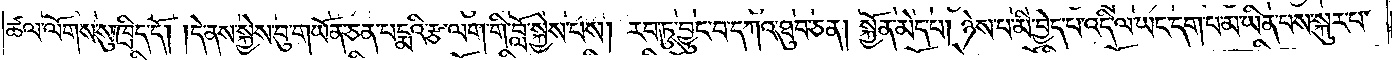ཚལ་ལོགས་སུ་ཁྲིད་དོ། །དེ་ནས་སྐྱེས་བུ་གཡོན་ཅན་པདྨའི་རྩ་ལག་གི་བློ་སྐྱེས་པས། རབ་ཏུ་བྱུང་བ་དཀའ་ཐུབ་ཅན། སྐྱོན་མེད་པ། ཉེས་པ་མི་བྱེད་པ་འདི་ལ་ཡང་དག་པ་མ་ཡིན་པས་སྐུར་པ་
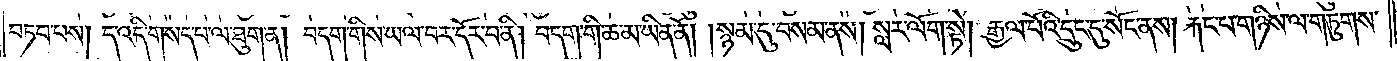བཏབ་པས། ད་འདི་གསད་པ་ལ་ཐུག་ན། བདག་གིས་ཡལ་བར་དོར་བ་ནི། བདག་གི་ཆ་མ་ཡིན་ནོ། །སྙམ་དུ་བསམ་ནས། སླར་ལོག་སྟེ། རྒྱལ་པོའི་དྲུང་དུ་སོང་ནས། རྐང་པ་གཉིས་ལ་གཏུགས་
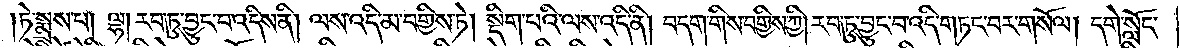།ཏེ་སྨྲས་པ། ལྷ། རབ་ཏུ་བྱུང་བ་འདིས་ནི། ལས་འདི་མ་བགྱིས་ཏེ། སྡིག་པའི་ལས་འདི་ནི། བདག་གིས་བགྱིས་ཀྱི། རབ་ཏུ་བྱུང་བ་འདི་གཏང་བར་གསོལ། དགེ་སློང་
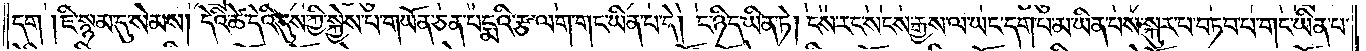དག །ཇི་སྙམ་དུ་སེམས། དེའི་ཚེ་དེའི་དུས་ཀྱི་སྐྱེས་པ་གཡོན་ཅན་པདྨའི་རྩ་ལག་གང་ཡིན་པ་དེ། ང་ཉིད་ཡིན་ཏེ། ངས་རང་སངས་རྒྱས་ལ་ཡང་དག་པ་མ་ཡིན་པས་སྐུར་པ་བཏབ་པ་གང་ཡིན་པ་
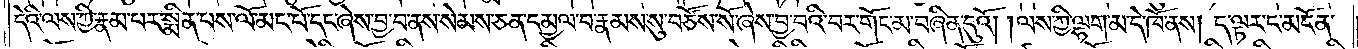དེའི་ལས་ཀྱི་རྣམ་པར་སྨིན་པས་ལོ་མང་པོ་དང་ཞེས་བྱ་བ་ནས་སེམས་ཅན་དམྱལ་བ་རྣམས་སུ་བཙོས་སོ་ཞེས་བྱ་བའི་བར་གོང་མ་བཞིན་དུའོ། །ལས་ཀྱི་ལྷག་མ་དེ་ཁོ་ནས། ད་ལྟར་ང་མངོན་
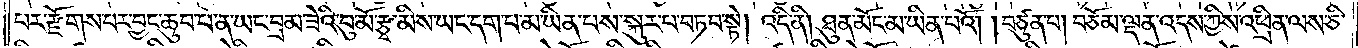པར་རྫོགས་པར་བྱང་ཆུབ་པ་ན་ཡང་བྲམ་ཟེའི་བུ་མོ་རྩྭ་མིས་ཡང་དག་པ་མ་ཡིན་པས་སྐུར་བ་བཏབ་སྟེ། འདི་ནི། ཐུན་མོང་མ་ཡིན་པའོ། །བཙུན་པ། བཅོམ་ལྡན་འདས་ཀྱིས་འཕྲིན་ལས་ཅི་
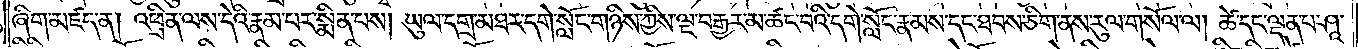ཞིག་མཛད་ན། འཕྲིན་ལས་དེའི་རྣམ་པར་སྨིན་པས། ཡུལ་དགྲ་མཐར་དགེ་སློང་གཉིས་ཀྱིས་ལྔ་བརྒྱར་མ་ཚང་བའི་དགེ་སློང་རྣམས་དང་ཐབས་ཅིག་ནས་རུལ་གསོལ་ལ། ཚེ་དང་ལྡན་པ་ཤཱ་
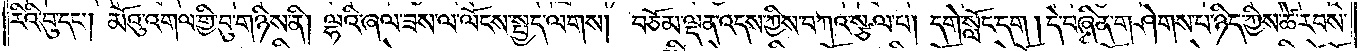རིའི་བུ་དང༌། མོའུ་འགལ་གྱི་བུ་གཉིས་ནི། ལྷའི་ཞལ་ཟས་ལ་ལོངས་སྤྱད་ལགས། བཅོམ་ལྡན་འདས་ཀྱིས་བཀའ་སྩལ་པ། དགེ་སློང་དག །དེ་བཞིན་གཤེགས་པ་ཉིད་ཀྱིས་ཚེ་རབས་
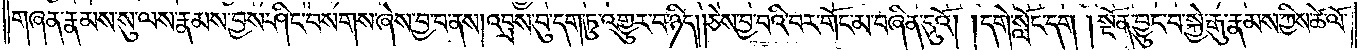གཞན་རྣམས་སུ་ལས་རྣམས་བྱས་ཤིང་བསགས་ཞེས་བྱ་བ་ནས། འབྲས་བུ་དག་ཏུ་འགྱུར་བ་ཉིད། །ཅེས་བྱ་བའི་བར་གོང་མ་བཞིན་དུའོ། །དགེ་སློང་དག །སྔོན་བྱུང་བ་སྐྱེ་རྒུ་རྣམས་ཀྱིས་ཚེ་ལོ་
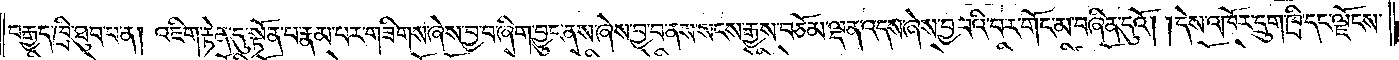བརྒྱད་ཁྲི་ཐུབ་པ་ན། འཇིག་རྟེན་དུ་སྟོན་པ་རྣམ་པར་གཟིགས་ཞེས་བྱ་བ་ཞིག་བྱུང་ནས་ཞེས་བྱ་བ་ནས་སངས་རྒྱས་བཅོམ་ལྡན་འདས་ཞེས་བྱ་བའི་བར་གོང་མ་བཞིན་དུའོ། །དེས་འཁོར་དྲུག་ཁྲི་དང་ལྗོངས་
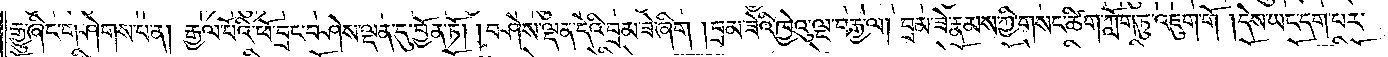རྒྱུ་ཞིང་གཤེགས་པ་ན། རྒྱལ་པོའི་ཕོ་བྲང་བཤེས་ལྡན་དུ་བྱོན་ཏོ། །བཤེས་ལྡན་དེའི་བྲམ་ཟེ་ཞིག །བྲམ་ཟེའི་ཁྱེའུ་ལྔ་བརྒྱ་ལ། བྲམ་ཟེ་རྣམས་ཀྱི་གསང་ཚིག་ཀློག་ཏུ་འཇུག་གོ །དེས་ཡང་དག་པར་
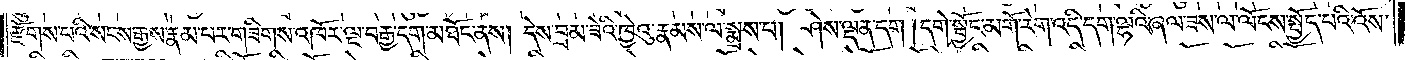རྫོགས་པའི་སངས་རྒྱས་རྣམ་པར་གཟིགས་འཁོར་ལྔ་བརྒྱ་དག་མཐོང་ནས། དེས་བྲམ་ཟེའི་ཁྱེའུ་རྣམས་ལ་སྨྲས་པ། ཤེས་ལྡན་དག །དགེ་སྦྱོང་མགོ་རེག་འདི་དག་ལྷའི་ཞལ་ཟས་ལ་ལོངས་སྤྱོད་པའི་འོས་
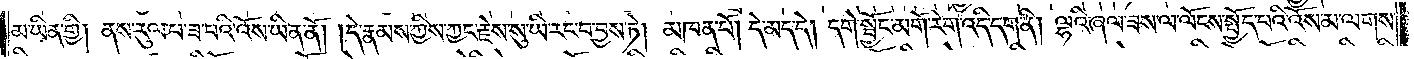མ་ཡིན་གྱི། ནས་རུལ་བ་ཟ་བའི་འོས་ཡིན་ནོ། །དེ་རྣམས་ཀྱིས་ཀྱང་རྗེས་སུ་ཡི་རང་བ་བྱས་ཏེ། མཁན་པོ། དེ་མད་དེ། དགེ་སྦྱོང་མགོ་རེག་འདི་དག་ནི། ལྷའི་ཞལ་ཟས་ལ་ལོངས་སྤྱོད་པའི་འོས་མ་ལགས་
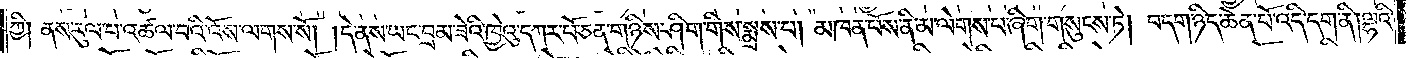ཀྱི། ནས་རུལ་པ་འཚལ་བའི་འོས་ལགས་སོ། །དེ་ནས་ཡང་བྲམ་ཟེའི་ཁྱེའུ་དཀར་པོ་ཅན་གཉིས་ཤིག་གིས་སྨྲས་པ། མཁན་པོས་ནི་མ་ལེགས་པ་ཞིག་གསུངས་ཏེ། བདག་ཉིད་ཆེན་པོ་འདི་དག་ནི། ལྷའི་
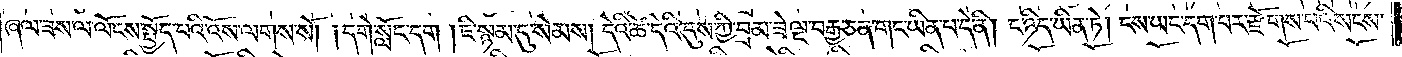ཞལ་ཟས་ལ་ལོངས་སྤྱོད་པའི་འོས་ལགས་སོ། །དགེ་སློང་དག །ཇི་སྙམ་དུ་སེམས། དེའི་ཚེ་དེའི་དུས་ཀྱི་བྲམ་ཟེ་ལྔ་བརྒྱ་ཅན་གང་ཡིན་པ་དེ་ནི། ང་ཉིད་ཡིན་ཏེ། ངས་ཡང་དག་པར་རྫོགས་པའི་སངས་
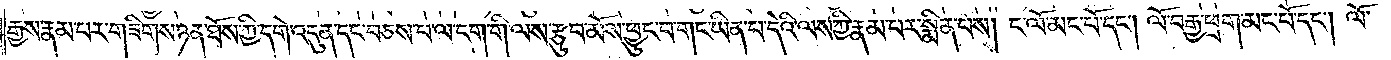རྒྱས་རྣམ་པར་གཟིགས་ཉན་ཐོས་ཀྱི་དགེ་འདུན་དང་བཅས་པ་ལ་ངག་གི་ལས་རྩུབ་མོས་ཕྱུང་བ་གང་ཡིན་པ་དེའི་ལས་ཀྱི་རྣམ་པར་སྨིན་པས། ང་ལོ་མང་པོ་དང༌། ལོ་བརྒྱ་ཕྲག་མང་པོ་དང༌། ལོ་
